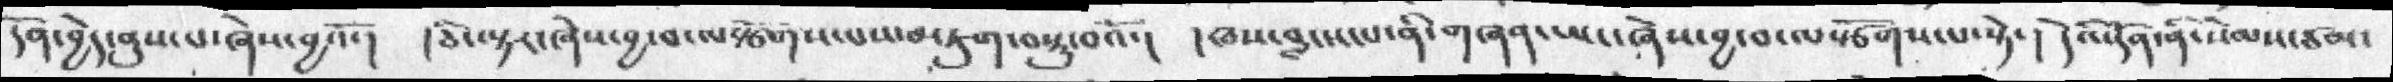དོན་བྱེད་ནུས་པ་ཞེས་བྱའོ་།  །ཅི་ལྟར་ཞེས་བྱ་བ་ལསྩོགས་པས་མཇུག་བསྡུ་བའོ་། །ཁས་བླངས་པ་ནི་གཞན་ཡང་ཞེས་བྱ་བ་ལསྩོགས་པ་སྟེ་། དེའི་དོན་ནི་སེམས་ཙམ་
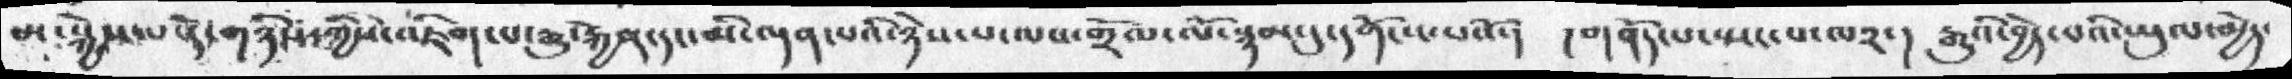མ་སྐྱེས་པ་དེ་གཉིས་ཀྱིས་འཇིག་པ་རྒུ་རྐྱེན་དང་མི་ལྡན་པའི་ཉེས་པ་ལས་གྲོལ་ལོ་སྙམ་དུ་དགོངས་པའོ་།  །གནོད་པ་སྤང་པ་ལ༢་། རྒྱུའི་བྱེད་པའི་ཡུལ་མྱེད་
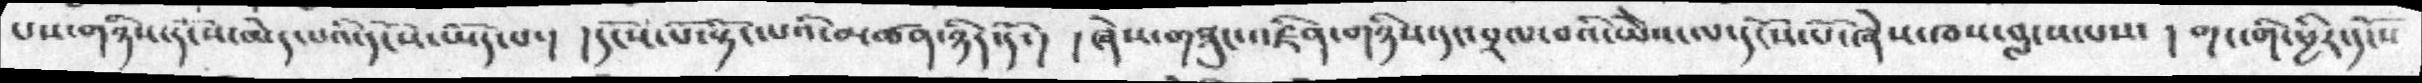པས་གཉིས་དངོས་མེད་པའི་དངོས་ཡོད་པ་།  །དངོས་པོ་སྟོང་པའི་མཚན་ཉིད་དོ་། །ཞེས་གཟུང་འཛིན་གཉིས་དངབྲལ་བའི་ཡཻས་ལ་དངོས་པོ་ཞེས་ཁས་བླངས་པས་། གང་གི་ཕྱིར་དངོས
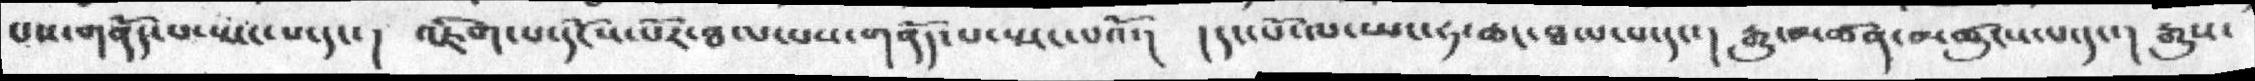པས་གནོད་པ་སྤང་པ་དང་། འཇིག་པ་དངོས་པོར་ཐལ་པས་གནོད་པ་སྤང་པའོ་།  །དང་པོ་ལ་ཡང་ཧ་ཆང་ཐལ་པ་དང་། རྒྱུ་མཚན་མཚུངས་པ་དང་། རྒྱུས་
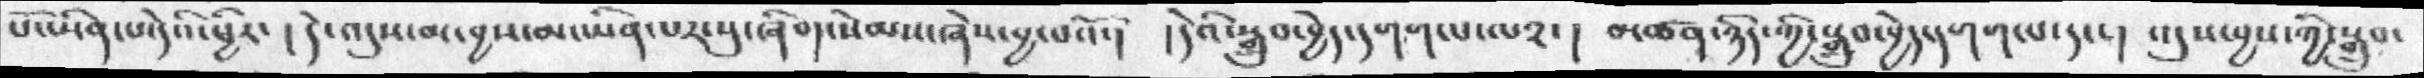པོ་ཡིན་པ་དེའི་ཕྱིར་། དེ་འདུས་མ་བྱས་མ་ཡིན་པར་སུ་ཞིག་སེམས་ཞེས་བྱ་བའོ་།  །དེའི་སྒྲུབ་བྱེད་དགག་པ་ལ༢་། མཚན་ཉིད་ཀྱི་སྒྲུབ་བྱེད་དགག་པ་དང་།  མཚན་ཉིད་ཀྱི་སྒྲུབ་བྱེད་དགག་པ་དང་། མཚན་ཉིད་ཀྱི་སྒྲུབ་བྱེད་དགག་པ་དང་། འདུས་བྱས་ཀྱི་སྒྲུབ་
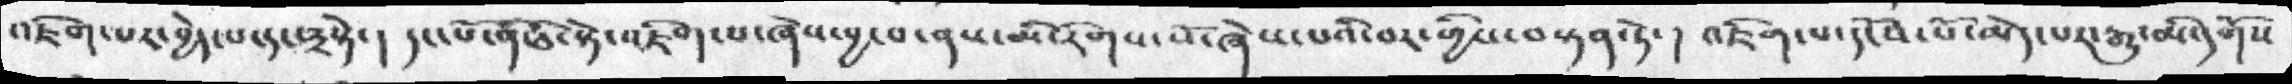འཇིག་པར་བྱེད་པ་དང་༣སྟེ་།  དང་པོ་ནི་ཅི་སྟེ་འཇིག་པ་ཞེས་བྱ་བ་ནས་མ་རིགས་སོ་ཞེས་པའི་བར་གྱིས་བསྟན་ཏེ་།  འཇིག་པ་དངོས་པོ་མེད་པར་རྒྱུ་མི་དགོས
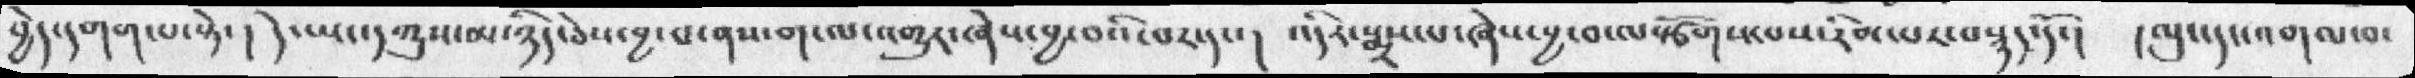བྱེད་དགག་པ་སྟེ་། དེ་ཡང་དཀྱུས་མ་ཉིད་ཅེས་བྱ་བ་ནས་ག་ལ་འགྱུར་ཞེས་བྱ་བའི་བར་དང་། འདིར་སྨྲས་པ་ཞེས་བྱ་བ་ལསྩོགས་པས་རིམ་པར་བསྙད་དོ་། །ལུང་དང་འགལ་བ་
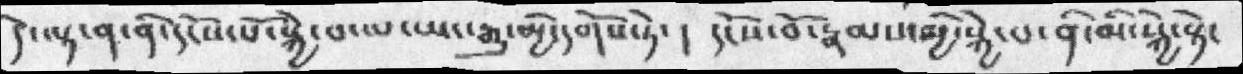དེ་ལྟ་ན་ནི་དངོས་པོ་སྐྱེ་བ་ལ་ཡང་རྒྱུ་མྱི་དགོས་ཏེ་།  དངོས་པོ་རྣམས་མྱི་སྐྱེ་བ་ནི་མི་སྐྱེ་སྟེ་
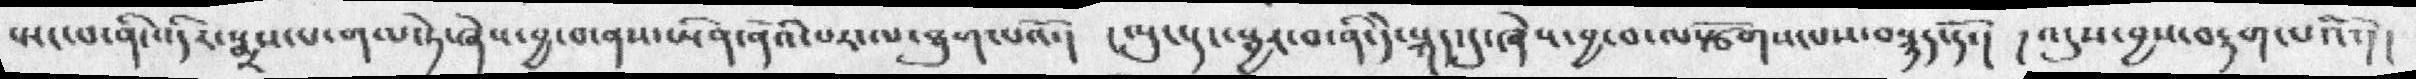སྤང་པ་ནི་འདིར་སྨྲས་པ་གལ་ཏེ་ཞེས་བྱ་བ་ནས་ཡིན་ནའི་བར་ལ་ཐུག་པའོ་།  །ལུང་དང་སྦྱར་བ་ནི་དེ་སྐད་དུ་ཞེས་བྱ་བ་ལསྩོགས་པས་བསྙད་དོ་། །འདུས་བྱས་བརྟག་པའོ་།།
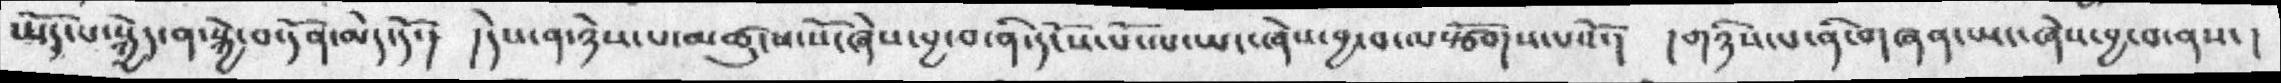ཡོད་པ་སྐྱེད་ན་སྐྱེ་བ་དོན་མེད་དོ་།  །དེས་ན་ཉེས་པ་མཚུངས་སོ་ཞེས་བྱ་བ་ནི་དངོས་པོ་ལ་ཡང་ཞེས་བྱ་བ་ལསྩོགས་པའོ་། །གཉིས་པ་ནི་གཞན་ཡང་ཞེས་བྱ་བ་ནས་།
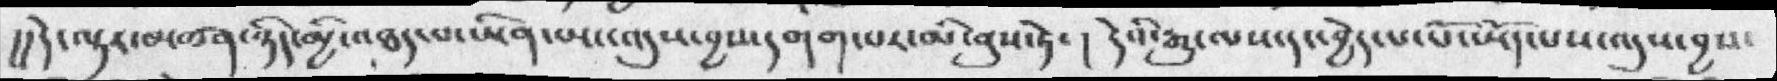།།དེ་ལྟར་མཚན་ཉིད་མྱི་འཐད་བ་ཡིན་ཡང་འདུས་བྱས་དགག་པར་མི་ནུས་ཏེ་།  དེའི་རྒྱུ་ལས་དང་བྱེད་པ་པོ་ཡོད་པས་འདུས་བྱས་
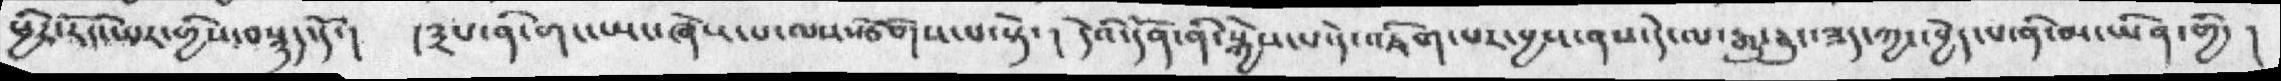ཕྱིར་རོད་ཡར་གྱིས་བསྙད་དོ་།  །༣པ་ནི་གང་ཡང་ཞེས་པ་ལསསྩོགས་པ་སྟེ་།  དེའི་དོན་ནི་སྐྱེས་པ་དེ་འཇིག་པར་བྱས་ནས་དེ་ལ་རྒྱུ་ཅུང་ཟད་ཀྱང་བྱེད་པ་ནི་མ་ཡིན་གྱི་།
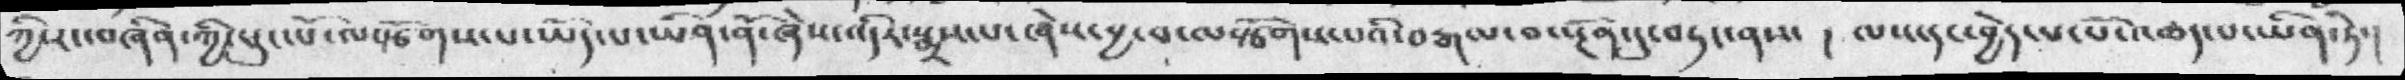ཀྱི་རང་བཞིན་ཀྱི་ཕུང་པོ་ལསྩོགས་པ་ཡོད་པ་ཡིན་ནོ་ཞེས་འདིར་སྨྲས་པ་ཞེས་བྱ་བ་ལསྩོགས་པའི་བརྒལ་བ་སྔོན་དུ་བཏང་ནས་།  ལས་དང་བྱེད་པ་པོ་འཆད་པ་ཡིན་ཏེ་།
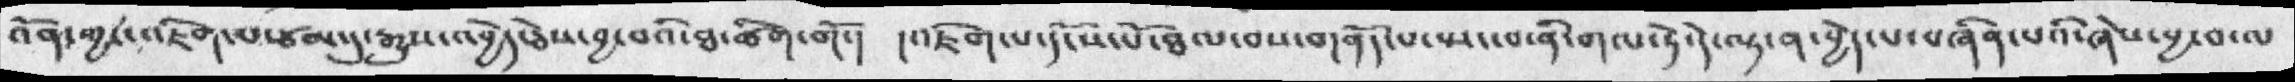འོན་ཀྱང་འཇིག་པ་ཙམ་དུ་རྒྱུས་འབྱེད་ཅེས་བྱ་བའི་ཐ་ཚིག་གོ་།  །འཇིག་པ་དངོས་པོ་ཐལ་བས་གནོད་པ་སྤང་བ་ནི་གལ་ཏེ་དེ་ལྟ་ན་བྱེད་པ་བཞིན་པའི་ཞེས་བྱ་བ་ལ
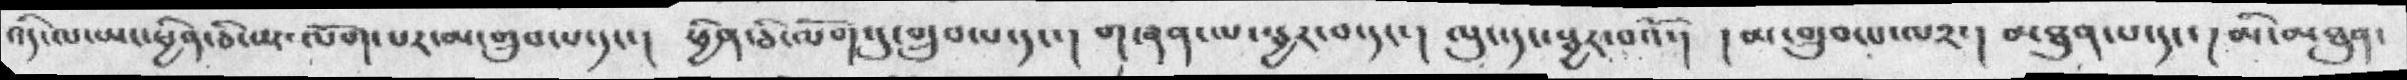འདི་ལ་ཡང་ཕྱིན་ཅི་མ་ལོག་པར་མ་གྲུབ་པ་དང་།  ཕྱིན་ཅི་ལོག་དུ་གྲུབ་པ་དང་། གཞན་ལ་སྦྱར་བ་དང་། ལུང་དང་སྦྱར་བའོ་། །མ་གྲུབ་པ་ལ༢་། མཐུན་པ་དང་། མི་མཐུན་
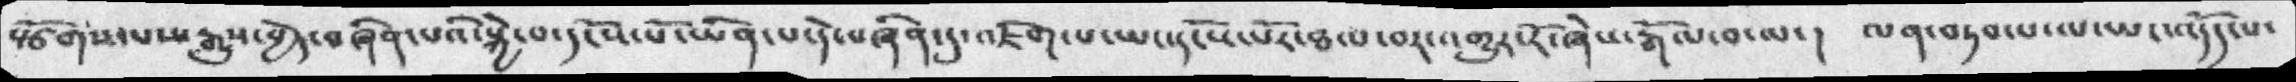སྩོགས་པས་རྒྱུས་བྱེད་བཞིན་པའི་སྐྱེ་བ་དངོས་པོ་ཡིན་པ་དེ་བཞིན་དུ་འཇིག་པ་ཡང་དངོས་པོར་ཐལ་བར་འགྱུར་རོ་ཞེས་རྒོལ་བ་ལ་།  ལན་བཏབ་པ་ལ་ཡང་འདོད་པ་
